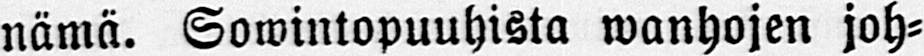nämä. Sowintopuuhista wanhojen joh-
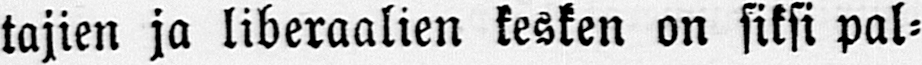tajien ja liberaalien kesken on siksi pal-
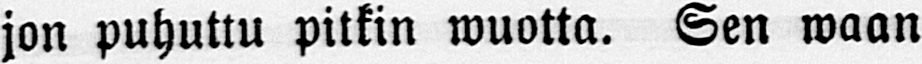jon puhuttu pitkin wuotta. Sen maan
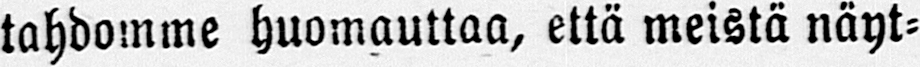tahdomme huomauttaa, että meistä näyt-
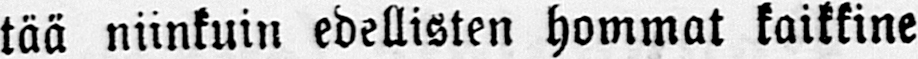tää niinkuin edellisten hommat kaikkine
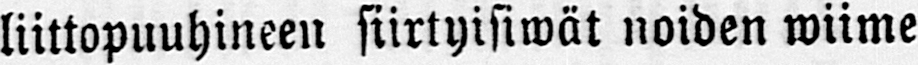liittopuuhineen siirtyisiwät noiden wiime
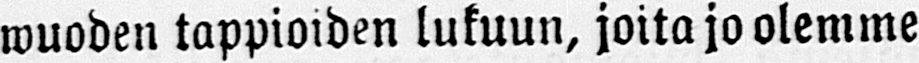wuoden tappioiden lukuun, joita jo olemme
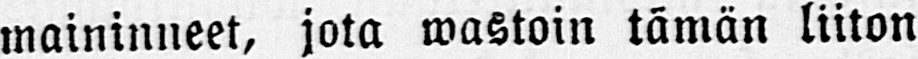maininneet, jota wastoin tämän liiton
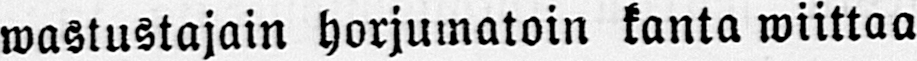wastustajain horjumatoin kanta wiittaa
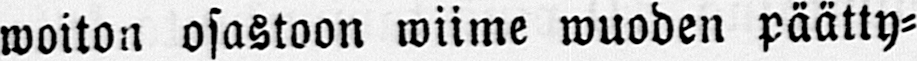woiton osastoon wiime wuoden päätty-
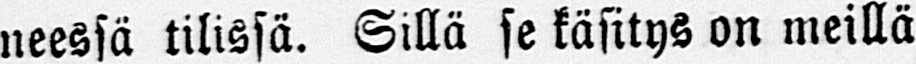neessä tilissä. Sillä se käsitys on meillä
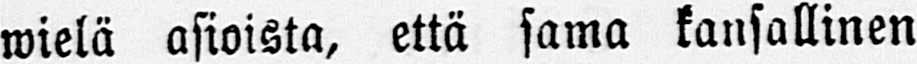wielä asioista, että sama kansallinen
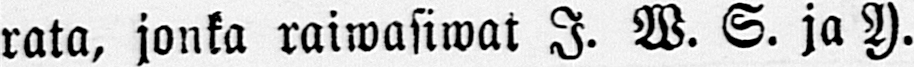rata, jonka raiwasiwat I. W. S. ja Y.
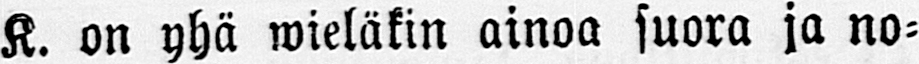K. on yhä wieläkin ainoa suora ja no-
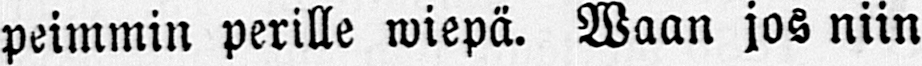peimmin perille wiepä. Maan jos niin
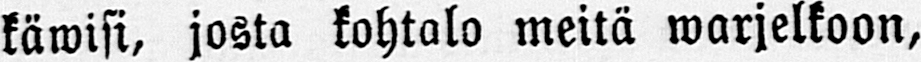käwisi, josta kohtalo meitä warjelkoon,
